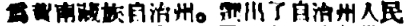爲黃南藏族自治州。選出了自治州人民
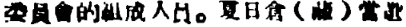委員會的組成人員。夏日倉（藏）當選
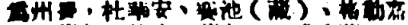爲州長，杜華安、賽池（藏）、格勒嘉
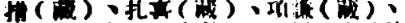措（藏）、扎喜（藏）、項謙（藏）、
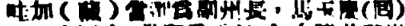哇加（藏）當選爲副州長，馬玉慶（囘）
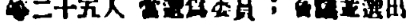等二十五人 當選爲委員；會議並選出
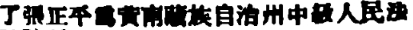了張正平爲黃南藏族自治州中級人民法
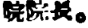院院長。
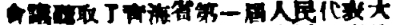會議聽取了靑海省第一屆人民代表大
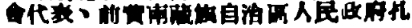會代表、前黃南藏族自治區人民政府扎
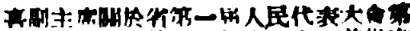喜副主席關於省第一屆人民代表大會第
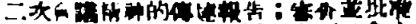二次會議精神的傳達報告；審查並批准
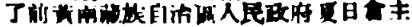了前黃南藏族自治區人民政府夏日倉主
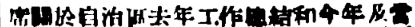席關於自治區去年工作總結和今年及當
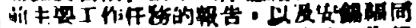前主要工作任務的報告，以及安錫福同
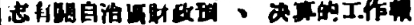志有關自治區財政預 、決算的工作報
